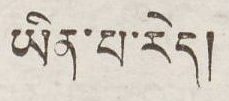ཡིན་པ་རེད།
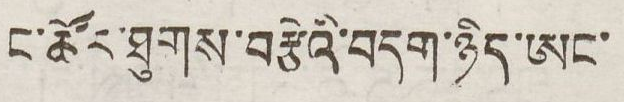ང་ཚོར་ཐུགས་བརྩེའི་བདག་ཉིད་ཨང་
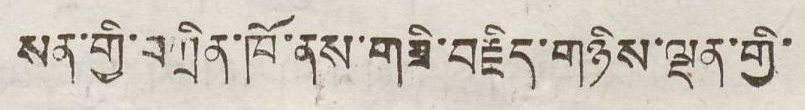སན་གྱི་བཀྲིན་ཁོ་ནས་གཟི་བརྗིད་གཉིས་ལྡན་གྱི་
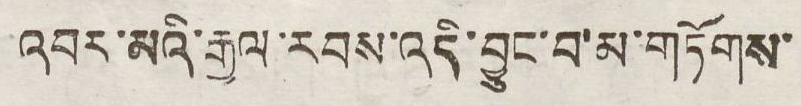འབར་མའི་རྒྱལ་རབས་འདི་བྱུང་བ་མ་གཏོགས་
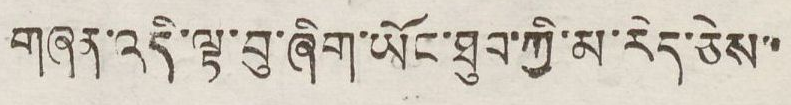གཞན་འདི་ལྟ་བུ་ཞིག་ཡོང་ཐུབ་ཀྱི་མ་རེད་ཅེས་་
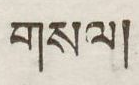གསལ།
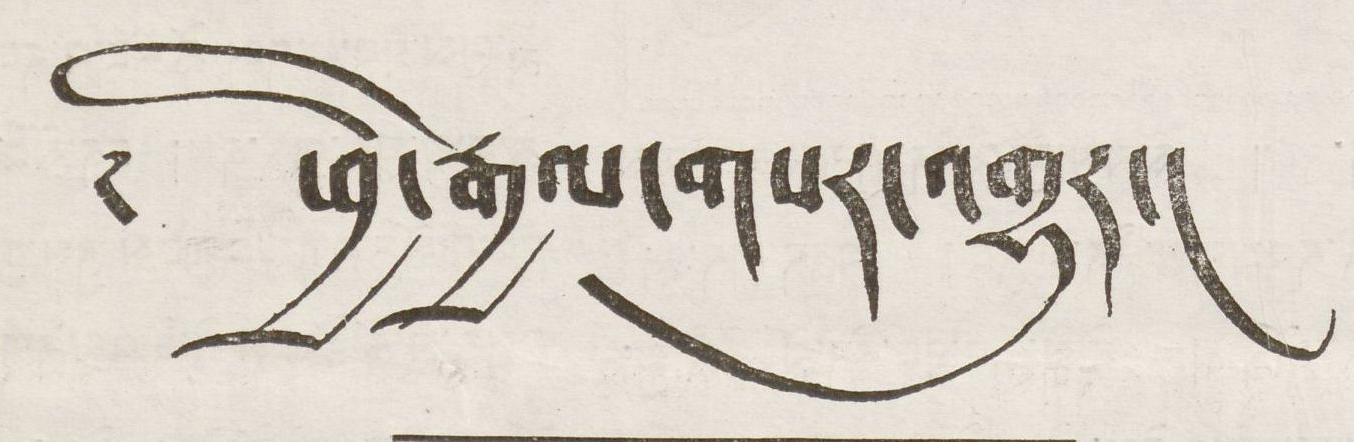༄ ཕྱི་རྒྱལ་གསར་འགྱུར།
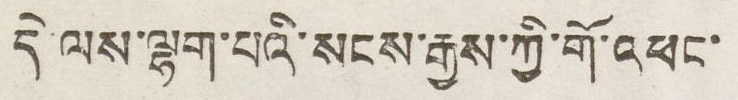དེ་ལས་ལྷག་པའི་སངས་རྒྱས་ཀྱི་གོ་འཕང་
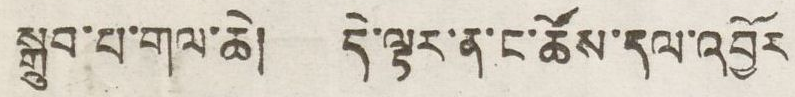སྒྲུབ་པ་གལ་ཆེ། དེ་ལྟར་ན་ང་ཚོས་དལ་འབྱོར
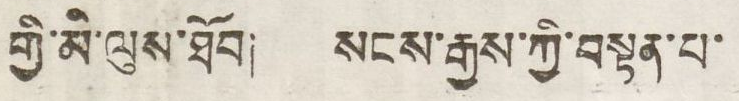གྱི་མི་ལུས་ཐོབ། སངས་རྒྱས་ཀྱི་བསྟན་པ་
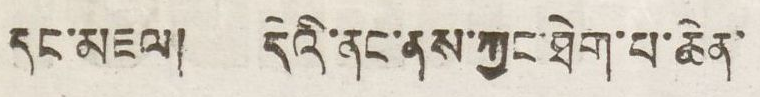དང་མཇལ། དེའི་ནང་ནས་ཀྱང་ཐེག་པ་ཆེན་
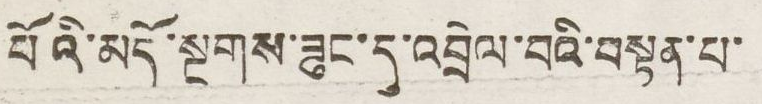པོའི་མདོ་སྔགས་ཟུང་དུ་འབྲེལ་བའི་བསྟན་པ་
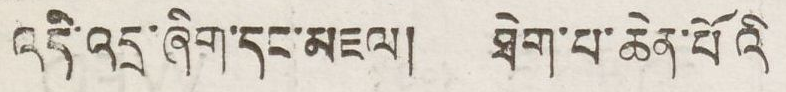འདི་འདྲ་ཞིག་དང་མཇལ། ཐེག་པ་ཆེན་པོའི
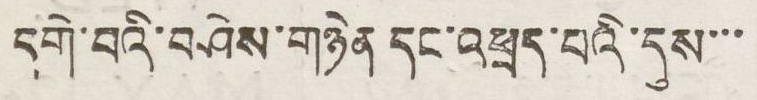དགེ་བའི་བཤེས་གཉེན དང་འཕྲད་པའི་དུས་་་
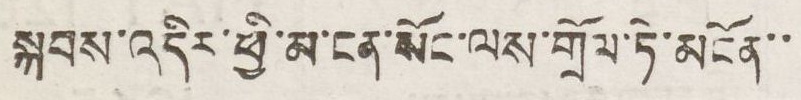སྐབས་འདིར་ཕྱི་མ་ངན་སོང་ལས་གྲོལ་ཏེ་མངོན་་
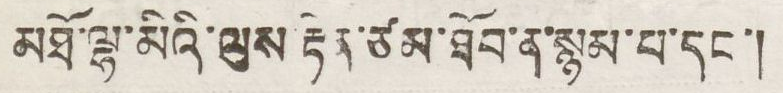མཐོ་ལྷ་མིའི་ལུས རྟེན་ཙམ་ཐོབ་ན་སྙམ་པ་དང་།
